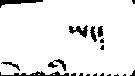ཡང་
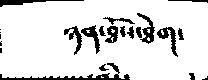ཉན་ཐོས་ཐེག་
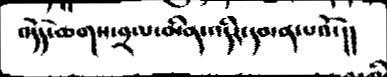འདོད་ཆགས་བྲལ་པ་མིན་འདིར་དམ་ན་པའོ་།།
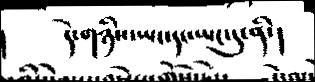དེ་གཉིས་ཡང་དང་ཡང་དུ་ནི་།
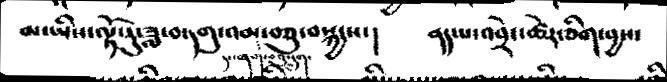མ་ཡིས་ལྟོ་རུ་ཟླ་བ་དགུ་འམ་ད་ཞག་བཅུ་དྲུག་བཅུ་བསྐྱངས་།  ནད་པ་འབྲེང་ཚེར་ཅིག་བྱས་
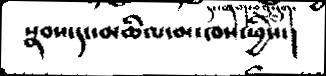སྣབས་དང་མཆིལ་མ་ཁས་ཕྱིས་།
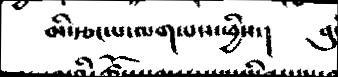མི་རྩང་པ་ལག་པས་ཕྱིས་།
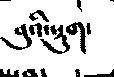བུའི་སྡུག་
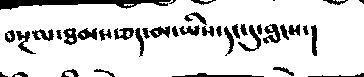བསྔལ་ཐབས་ཅད་མ་ཡིས་དང་དུ་བླངས་།
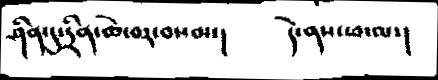ཤིན་དུ་དྲིན་ཆེ་བར་བསམ་།     དེ་ནས་ཕ་ལ་།
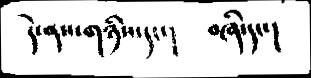དེ་ནས་གཉིས་དང་།       བཞི་དང་།
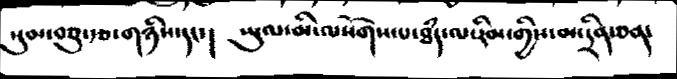སུམ་བཅུ་རྩ་གཉིས་དང་།    ཡུལ་མི་ལསོགས་པ་ཐཾད་ལ་རིམ་གྱིས་མ་དྲིན་ཅན་
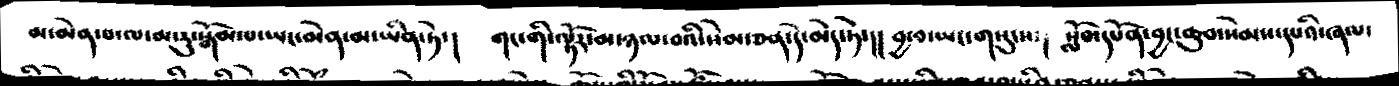མ་མེན་པ་ལ་མ་རུ་སྒོམ་པ་ཡང་མེན་མ་ཡིན་ཏེ་།   གང་གི་ལྟོར་མ་ཉལ་བའི་སེམས་ཅན་དེ་མེད་ཏེ་།།   བྱ་བ་ཡང་གསུངས་།   སློབ་དཔོན་བྱང་ཆུབ་སེམས་དཔའི་ཞལ་
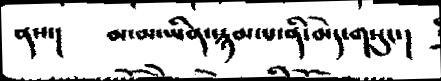ནས་།   མ་མ་ཡིན་སྙམ་པ་ནི་མེད་གསུང་།
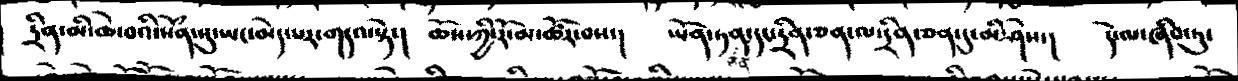དྲིན་མི་ཆེ་བའི་སེཾམ་སུ་ཡང་མེད་པར་གདའ་སྟེ་།    ཆོས་ཀྱི་རོ་མ་ཚོར་བས་།   ཡོན་ཏན་ཅན་དང་དྲིན་ཅན་དུ་མི་ཤེས་།   དེ་ལ་ཞིབ་ཏུ་
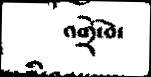འགྲོ་བ་
